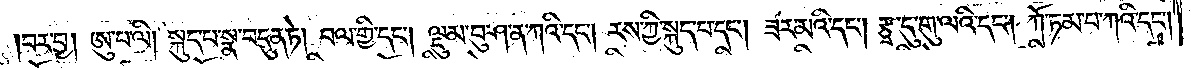པར་བྱ། ཨུ་པ་ལི། སྐུད་པ་སྣ་བདུན་ཏེ། བལ་གྱི་དང༌། ལྡུམ་བུ་ཤ་ན་ཀའི་དང༌། རས་ཀྱི་སྐུད་པ་དང༌། ཟར་མའི་དང༌། རྩྭ་དུ་གུ་ལའི་དང༌། ཀོ་ཏམ་པ་ཀའི་དང༌།
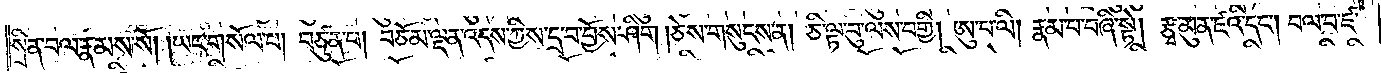སྲིན་བལ་རྣམས་སོ། །ཡང་གསོལ་པ། བཙུན་པ། བཅོམ་ལྡན་འདས་ཀྱིས་དྲ་བ་བྱོས་ཤིག །ཅེས་གསུངས་ན། ཅི་ལྟ་བུ་ལས་བགྱི་།ཨུ་པ་ལི། རྣམ་པ་བཞི་སྟེ། རྩྭ་མུན་ཛའི་དང༌། བལ་བ་ཛ་
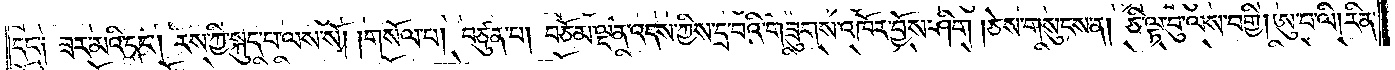དང་༑ ཟར་མའི་དང༌། རས་ཀྱི་སྐུད་པ་ལས་སོ། །གསོལ་པ། བཙུན་པ། བཅོམ་ལྡན་འདས་ཀྱིས་དྲ་བའི་གཟུགས་འཁོར་བྱོས་ཤིག །ཅེས་གསུངས་ན། ཅི་ལྟ་བུ་ལས་བགྱི། ཨུ་པ་ལི། རིན་
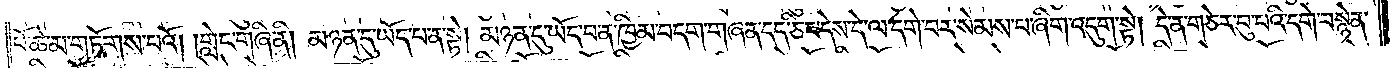པོ་ཆེ་མ་གཏོགས་པའོ། །གླེང་གཞི་ནི། མཉན་དུ་ཡོད་པ་ན་སྟེ། མཉན་དུ་ཡོད་པ་ན་ཁྱིམ་བདག་གཞན་དད་ཅིང་དེས་དེ་ལ་དགེ་བར་སེམས་པ་ཞིག་འདུག་སྟེ། དེ་ན་གཅེར་བུ་པའི་དགེ་བསྙེན་
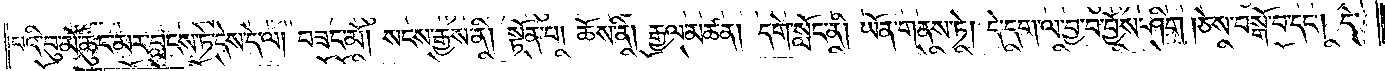པའི་བུ་མོ་ཆུང་མར་བླངས་ཏེ་དེས་དེ་ལ། བཟང་མོ། སངས་རྒྱས་ནི། སྟོན་པ། ཆོས་ནི། རྒྱལ་མཚན། དགེ་སློང་ནི། ཡོན་གནས་ཏེ། དེ་དག་ལ་བྱ་བ་བྱོས་ཤིག །ཅེས་བསྒོ་བ་དང༌། དེ་
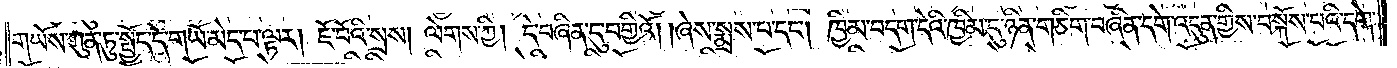གཡོས་ཀུན་ཏུ་སྤྱོད་དེ་གཡོ་མེད་པ་ལྟར། ཇོ་བོའི་སྲས། ལེགས་ཀྱི། དེ་བཞིན་དུ་བགྱིའོ། །ཞེས་སྨྲས་པ་དང༌། ཁྱིམ་བདག་དེའི་ཁྱིམ་དུ་ཉིན་གཅིག་བཞིན་དགེ་འདུན་གྱིས་བསྐོས་པའི་དགེ་
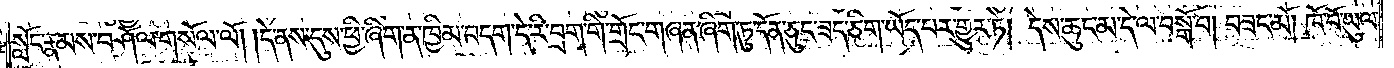སློང་རྣམས་བཤོལ་གསོལ་ལོ། །དེ་ནས་དུས་ཕྱི་ཞིག་ན་ཁྱིམ་བདག་དེ་རི་བྲག་གི་གྲོང་གཞན་ཞིག་ཏུ་དོན་ཅུང་ཟད་ཅིག་ཡོད་པར་གྱུར་ཏེ། དེས་ཆུང་མ་དེ་ལ་བསྒོ་བ། བཟང་མོ། ཁོ་བོ་ཡུལ་
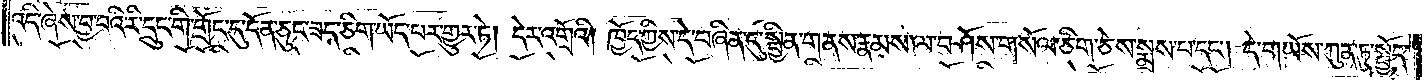འདི་ཞེས་བྱ་བའི་རི་དྲུང་གི་གྲོང་དུ་དོན་ཅུང་ཟད་ཅིག་ཡོད་པར་གྱུར་ཏེ། དེར་འགྲོའི། ཁྱོད་ཀྱིས་དེ་བཞིན་དུ་སྦྱིན་གནས་རྣམས་ལ་བཤོས་གསོལ་ཅིག་ཅེས་སྨྲས་པ་དང༌། དེ་གཡོས་ཀུན་ཏུ་སྤྱོད་
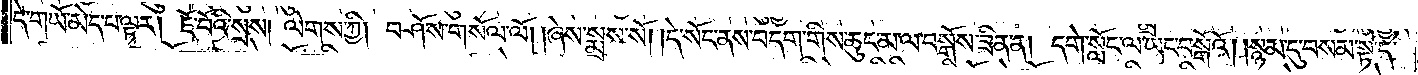དེ་གཡོ་མེད་པ་ལྟར། ཇོ་བོའི་སྲས། ལེགས་ཀྱི། བཤོས་གསོལ་ལོ། །ཞེས་སྨྲས་སོ། །དེ་སོང་ནས་བདག་གིས་ཆུང་མ་ལ་བསྒོས་ཟིན་ན། དགེ་སློང་ལ་ཡང་བསྒོའོ། །སྙམ་དུ་བསམ་སྟེ་དེ་
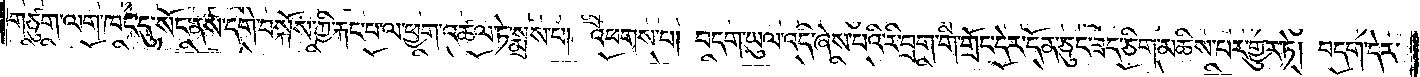གཙུག་ལག་ཁང་དུ་སོང་ནས་དགེ་བསྐོས་ཀྱི་རྐང་པ་ལ་ཕྱག་འཚལ་ཏེ་སྨྲས་པ། འཕགས་པ། བདག་ཡུལ་འདི་ཞེས་པའི་རི་བྲག་གི་གྲོང་དེར་དོན་ཅུང་ཟད་ཅིག་མཆིས་པར་གྱུར་ཏེ། བདག་དེར་
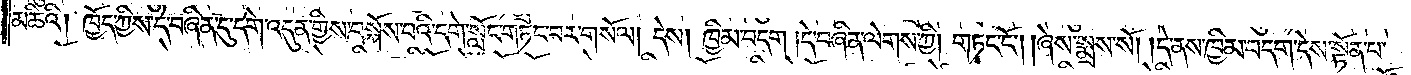མཆིའི། ཁྱོད་ཀྱིས་དེ་བཞིན་དུ་དགེ་འདུན་གྱིས་བསྐོས་པའི་དགེ་སློང་གཏང་བར་གསོལ། དེས། ཁྱིམ་བདག །དེ་བཞིན་ལེགས་ཀྱི། གཏང་ངོ༌། །ཞེས་སྨྲས་སོ། །དེ་ནས་ཁྱིམ་བདག་དེས་སྟོན་པ་
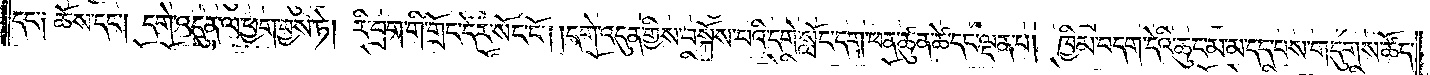དང་༑ ཆོས་དང༌། དགེ་འདུན་ལ་ཕྱག་བྱས་ཏེ། རི་བྲག་གི་གྲོང་དེར་སོང་ངོ༌། །དགེ་འདུན་གྱིས་བསྐོས་པའི་དགེ་སློང་དག་ཕན་ཚུན་ཚེ་དང་ལྡན་པ། ཁྱིམ་བདག་དེའི་ཆུང་མ་མ་དད་པས་གདུགས་ཚོད་
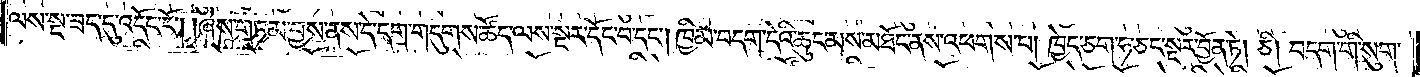ལས་སྔ་ཟད་དུ་འདོང་ངོ༌། །ཞེས་གཏམ་བྱས་ནས་དེ་དག་གདུགས་ཚོད་ལས་སྔར་དོང་བ་དང༌། ཁྱིམ་བདག་དེའི་ཆུང་མས་མཐོང་ནས་འཕགས་པ། ཁྱེད་ཅག་ཧ་ཅང་སྔར་བྱོན་ཏེ། ཅི། བདག་གི་སུག་
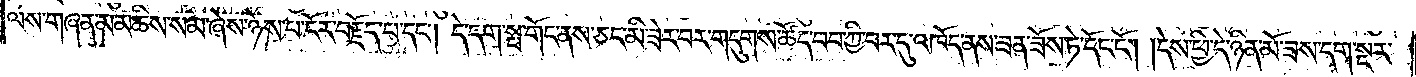ལས་གཞན་མ་མཆིས་སམ་ཞེས་ཉེས་པ་ངོར་བརྗོད་པ་དང༌། དེ་དག་སྤ་གོང་ནས་ཅང་མི་ཟེར་བར་གདུགས་ཚོད་བབ་ཀྱི་བར་དུ་འཁོད་ནས་ཟན་ཟོས་ཏེ་དོང་ངོ༌། །དེས་ཕྱི་དེ་ཉིན་མོ་ཟས་དག་སྔར་
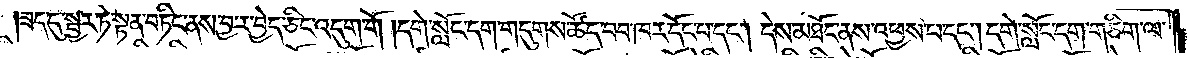ཟད་དུ་སྦྱར་ཏེ་སྟན་བཏིང་ནས་བྱ་ར་བྱེད་ཅིང་འདུག་གོ །དགེ་སློང་དག་གདུགས་ཆོད་བབ་ཁར་དོང་པ་དང༌། དེས་མཐོང་ནས་འཕྱས་པ་དང༌། དགེ་སློང་དག་གཅིག་ལ་
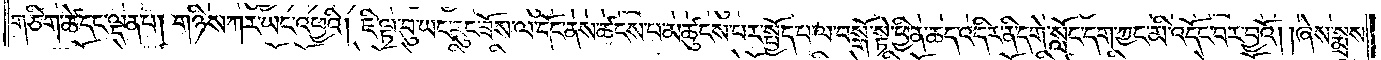གཅིག་ཚེ་དང་ལྡན་པ། གཉིས་ཀར་ཡང་འཕྱའི། ཇི་ལྟ་བུ་ཡང་རུང་ཟོས་ལ་དོང་ནས་ཚངས་པ་མཚུངས་པར་སྤྱོད་པ་ལ་བསྒོ་སྟེ་ཕྱིན་ཆད་འདིར་ནི་དགེ་སློང་དག་ཀྱང་མི་འདོང་བར་བྱའོ། །ཞེས་སྨྲས་
